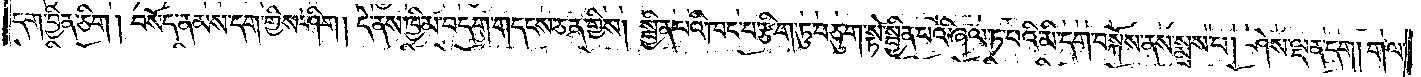དག་བྱིན་ཅིག། བསོད་ནམས་དག་གྱིས་ཤིག། དེ་ནས་ཁྱིམ་བདག་གདངས་ཅན་གྱིས། སྦྱིན་པའི་ཁང་པ་རྩིག་ཏུ་བཅུག་སྟེ་སྦྱིན་པའི་ཞལ་ཏ་པའི་མི་དག་བསྐོས་ནས་སྨྲས་པ། ཤེས་ལྡན་དག། གལ་
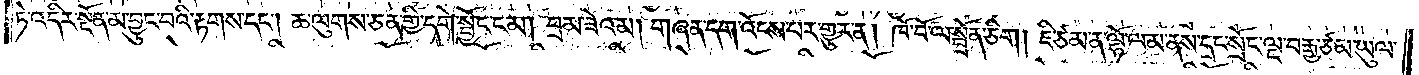ཏེ་འདིར་སྔོན་མ་བྱུང་བའི་རྟགས་དང༌། ཆ་ལུགས་ཅན་གྱི་དགེ་སྦྱོང་ངམ། བྲམ་ཟེའམ། གཞན་དག་འོངས་པར་གྱུར་ན། ཁོ་བོ་ལ་སྦྲོན་ཅིག། ཇི་ཙམ་ན་ལྷོ་ལམ་ནས་དྲང་སྲོང་ལྔ་བརྒྱ་ཙམ་ཡུལ་
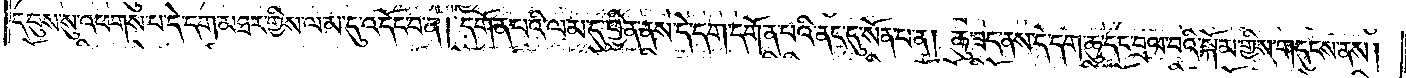དབུས་སུ་འཕགས་པ་དེ་དག་མཐར་གྱིས་ལམ་དུ་འདོང་བ་ན། དགོན་པའི་ལམ་དུ་ཕྱིན་ནས་དེ་དག་དགོན་པའི་ནང་དུ་སོན་པ་ན། ཆུ་ཟད་ནས་དེ་དག་ཆུ་དང་བྲལ་བའི་སྐོམ་གྱིས་གདུངས་ནས།
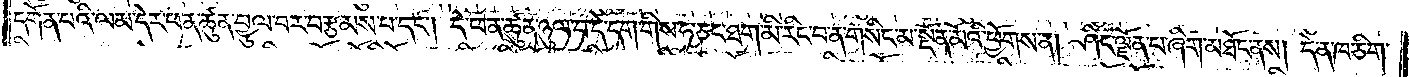དགོན་པའི་ལམ་དེར་ཕན་ཚུན་བྱུལ་བར་བརྩམས་པ་དང༌། དེ་ཕན་ཚུན་ཉུལ་བ་དེ་དག་གིས་ཧ་ཅང་ཐག་མི་རིང་བ་ན་གསིང་མ་སྔོན་མོའི་ཕྱོགས་ན། ཤིང་ལྗོན་པ་ཞིག་མཐོང་ནས། དེ་ན་ཁ་ཅིག་
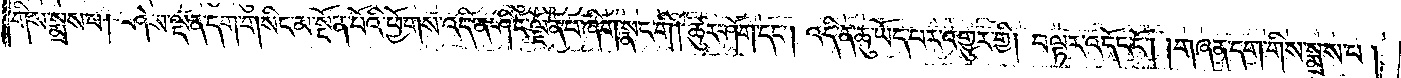གིས་སྨྲས་པ། ཤེས་ལྡན་དག་གསིང་མ་སྔོན་པོའི་ཕྱོགས་འདི་ན་ཤིང་ལྗོན་པ་ཞིག་སྣང་གི། ཚུར་ཤོག་དང༌། འདི་ན་ཆུ་ཡོད་པར་འགྱུར་གྱི། བལྟར་འདོང་ངོ༌། །གཞན་དག་གིས་སྨྲས་པ།
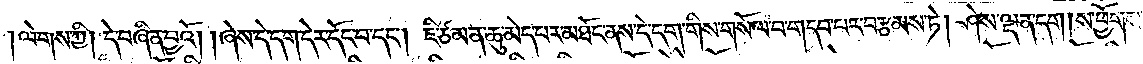ལེགས་ཀྱི། དེ་བཞིན་བྱའོ། །ཞེས་དེ་དག་དེར་དོང་བ་དང༌། ཇི་ཙམ་ན་ཆུ་མེད་པར་མཐོང་ནས་དེ་དག་གིས་གསོལ་པ་གདབ་པར་བརྩམས་ཏེ། ཤེས་ལྡན་དག །ས་ཕྱོགས་
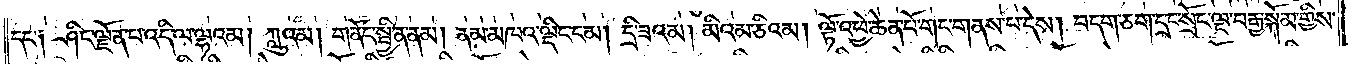དང་༑ ཤིང་ལྗོན་པ་འདི་ལ་ལྷའམ། ཀླུའམ། གནོད་སྦྱིན་ནམ། ནམ་མཁའ་ལྡིང་ངམ། དྲི་ཟའམ། མི་འམ་ཅིའམ། ལྟོ་འཕྱེ་ཆེན་པོ་གང་གནས་པ་དེས། བདག་ཅག་དྲང་སྲོང་ལྔ་བརྒྱ་སྐོམ་གྱིས་
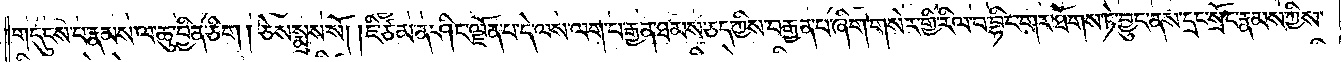གདུངས་པ་རྣམས་ལ་ཆུ་བྱིན་ཅིག། ཅེས་སྨྲས་སོ། །ཇི་ཙམ་ན་ཤིང་ལྗོན་པ་དེ་ལས་ལག་པ་རྒྱན་ཐམས་ཅད་ཀྱིས་བརྒྱན་པ་ཞིག་གསེར་གྱི་རིལ་བ་བྷིང་གར་ཐོགས་ཏེ་བྱུང་ནས་དྲང་སྲོང་རྣམས་ཀྱིས་
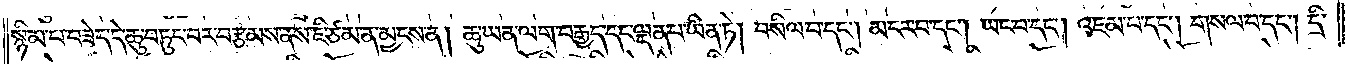སྙིམ་པ་བཟེད་དེ་ཆུ་བཏུང་བར་བརྩམས་ནས་ཇི་ཙམ་ན་མྱངས་ན། ཆུ་ཡན་ལག་བརྒྱད་དང་ལྡན་པ་ཡིན་ཏེ། བསིལ་པ་དང༌། མངར་བ་དང༌། ཡང་བ་དང༌། འཇམ་པ་དང༌། གསལ་བ་དང༌། དྲི་
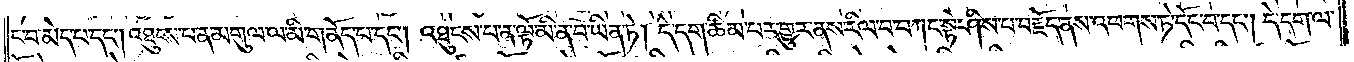ང་བ་མེད་པ་དང༌། འཐུངས་པ་ན་མགུལ་ལ་མི་གནོད་པ་དང༌། འཐུངས་པ་ན་ལྟོ་མི་ན་བ་ཡིན་ཏེ། དེ་དག་ཚིམ་པར་གྱུར་ནས་རིལ་བ་བཀང་སྟེ་ཤིས་པ་བརྗོད་ནས་འཕགས་ཏེ་དོང་བ་དང༌། དེ་དག་ལ་
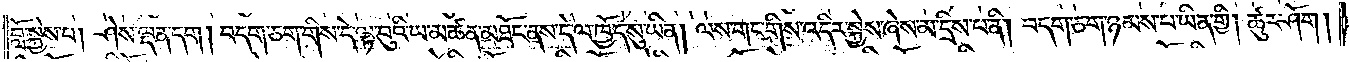བློ་སྐྱེས་པ། ཤེས་ལྡན་དག། བདག་ཅག་གིས་དེ་ལྟ་བུའི་ཡ་མཚན་མཐོང་ནས་དེ་ལ་ཁྱོད་སུ་ཡིན། ལས་གང་གིས་འདིར་སྐྱེས་ཞེས་མ་དྲིས་པ་ནི། བདག་ཅག་ཉམས་པ་ཡིན་གྱི། ཚུར་ཤོག །
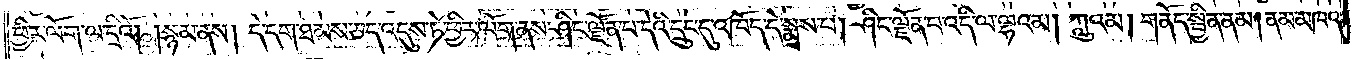ཕྱིར་ལོག་ལ་དྲིའོ། །སྙམ་ནས། དེ་དག་ཐམས་ཅད་འདུས་ཏེ་ཕྱིར་ལོག་ནས་ཤིང་ལྗོན་པ་དེའི་དྲུང་དུ་འཁོད་དེ་སྨྲས་པ། ཤིང་ལྗོན་པ་འདི་ལ་ལྷའམ། ཀླུའམ། གནོད་སྦྱིན་ནམ། ནམ་མཁའ་
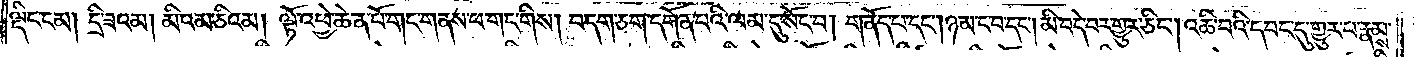ལྡིང་ངམ། དྲི་ཟའམ། མིའམ་ཅིའམ། ལྟོ་འཕྱེ་ཆེན་པོ་གང་གནས་པ་གང་གིས། བདག་ཅག་དགོན་པའི་ལམ་དུ་སོང་བ། གནོད་པ་དང༌། ཉམ་ང་བ་དང༌། མི་བདེ་བར་གྱུར་ཅིང༌། འཆི་བའི་དབང་དུ་གྱུར་པ་རྣམས་
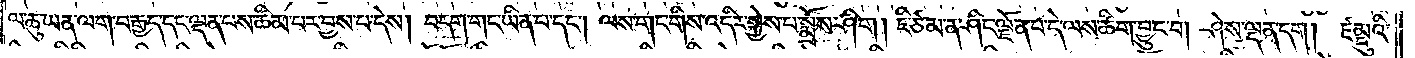ལ་ཆུ་ཡན་ལག་བརྒྱད་དང་ལྡན་པས་ཚིམ་པར་བྱས་པ་དེས། བདག་གང་ཡིན་པ་དང༌། ལས་གང་གིས་འདིར་སྐྱེས་པ་སྨྲོས་ཤིག། ཇི་ཙམ་ན་ཤིང་ལྗོན་པ་དེ་ལས་ཚིག་བྱུང་བ། ཤེས་ལྡན་དག། ཛམྦུའི་
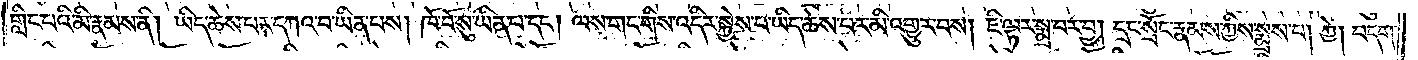གླིང་པའི་མི་རྣམས་ནི། ཡིད་ཆེས་པར་དཀའ་བ་ཡིན་པས། ཁོ་བོ་སུ་ཡིན་པ་དང༌། ལས་གང་གིས་འདིར་སྐྱེས་པ་ཡིད་ཆེས་པར་མི་འགྱུར་བས། ཇི་ལྟར་སྨྲ་བར་བྱ། དྲང་སྲོང་རྣམས་ཀྱིས་སྨྲས་པ། ཀྱེ། བདག་
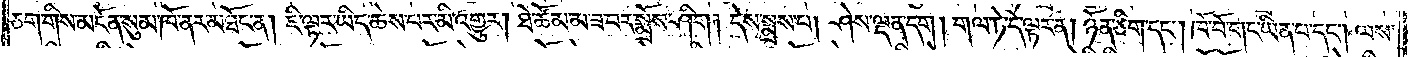ཅག་གིས་མངོན་སུམ་ཁོ་ནར་མཐོང་ན། ཇི་ལྟར་ཡིད་ཆེས་པར་མི་འགྱུར། ཐེ་ཚོམ་མ་ཟ་བར་སྨྲོས་ཤིག། དེས་སྨྲས་པ། ཤེས་ལྡན་དག། གལ་ཏེ་དེ་ལྟར་ན། ཉོན་ཅིག་དང༌། ཁོ་བོ་གང་ཡིན་པ་དང༌། ལས་
